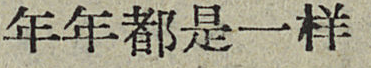年年都是一样
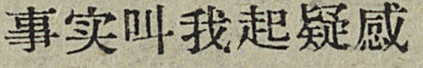事实叫我起疑感
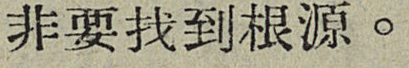非要找到根源。
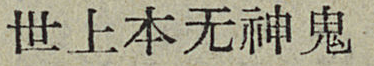世上本无神鬼
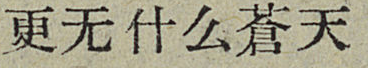更无什么蒼天
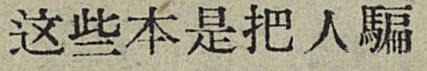这些本是把人騙
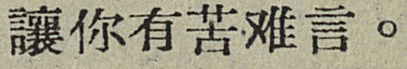讓你有苦难言。
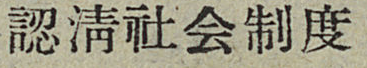認清社会制度
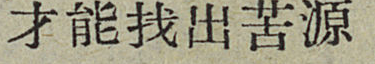才能找到苦源
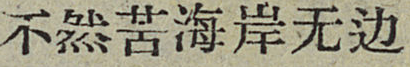不然苦海岸无边
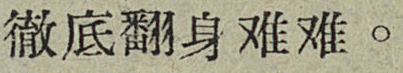徹底翻身难难。
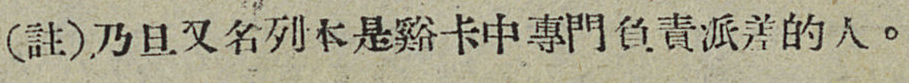（註）乃旦又名列本是谿卡中專門負責派差的人。
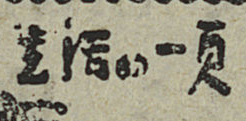生活的一页
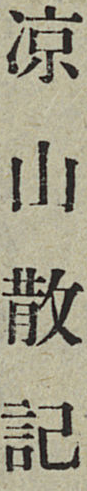凉 山 散 記
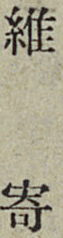維 寄
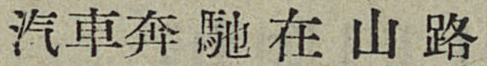汽車奔馳在山路
